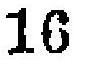16
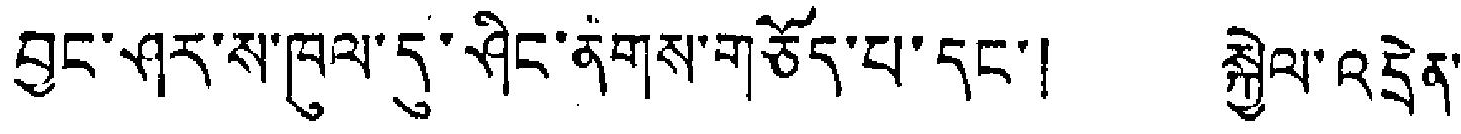བྱང་ཤར་ས་ཁུལ་དུ་ཤིང་ནགས་གཅོད་པ་དང་། སྐྱེལ་འདྲེན་
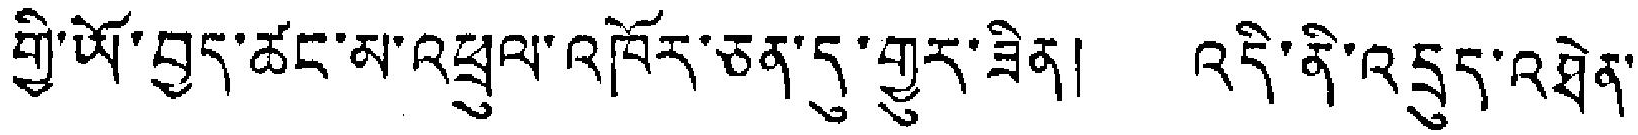གྱི་ཡོ་བྱད་ཚང་མ་འཕྲུལ་འཁོར་ཅན་དུ་གྱུར་ཟིན། འདི་ནི་འདྲུད་འཐེན་
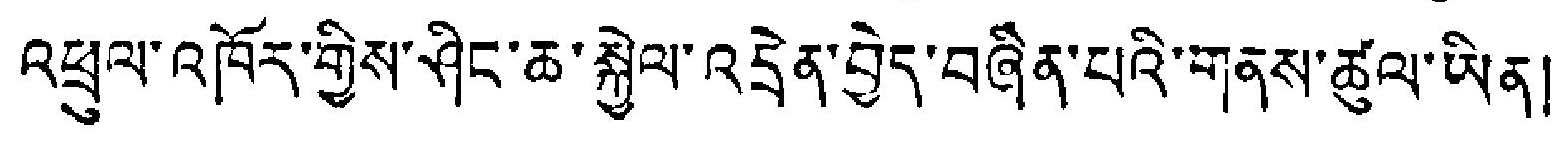འཕྲུལ་འཁོར་གྱིས་ཤིང་ཆ་སྐྱེལ་འདྲེན་བྱེད་བཞིན་པའི་གནས་ཚུལ་ཡིན།
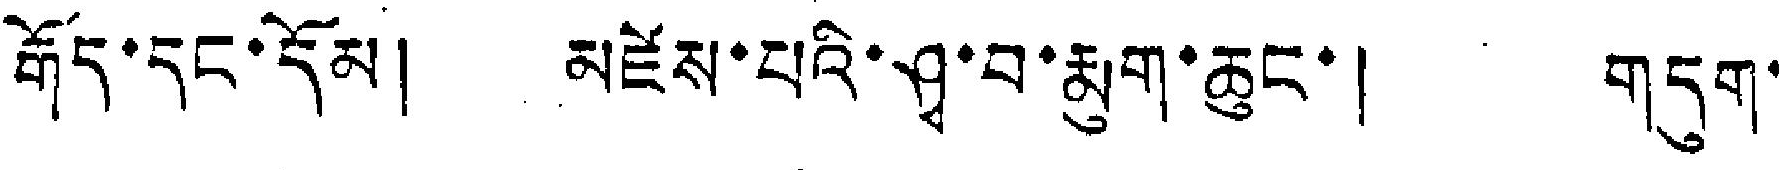རྒོད་དང་དོམ། མཛེས་པའི་ཤྭ་བ་རྨུག་ཆུང་། གདུག་
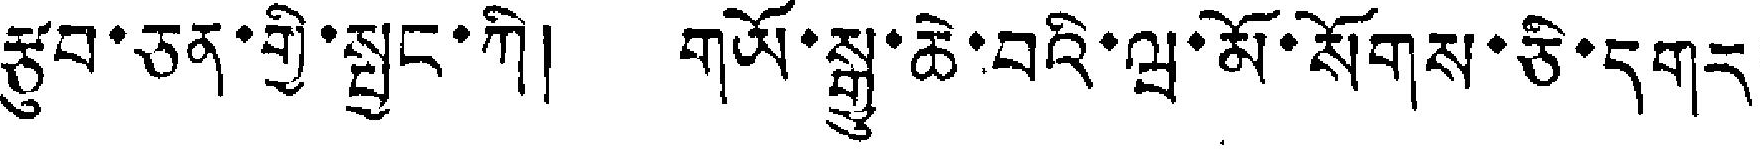རྩུབ་ཅན་གྱི་སྤྱང་ཀི། གཡོ་སྒྱུ་ཆེ་བའི་ཝ་མོ་སོགས་ཅི་དགར་
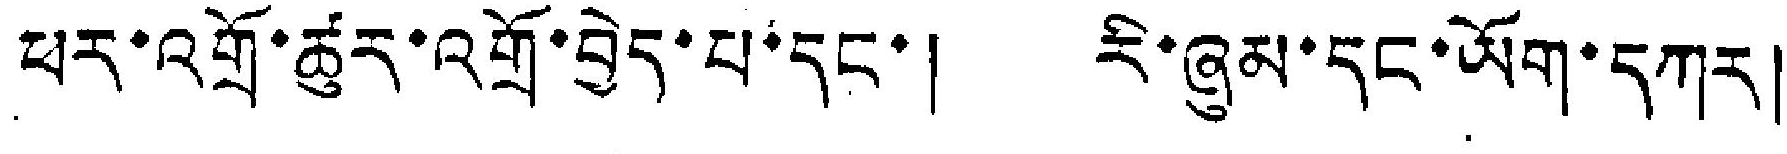ཕར་འགྲོ་ཚུར་འགྲོ་བྱེད་པ་དང་། རི་ཞུམ་དང་ཡོག་དཀར།
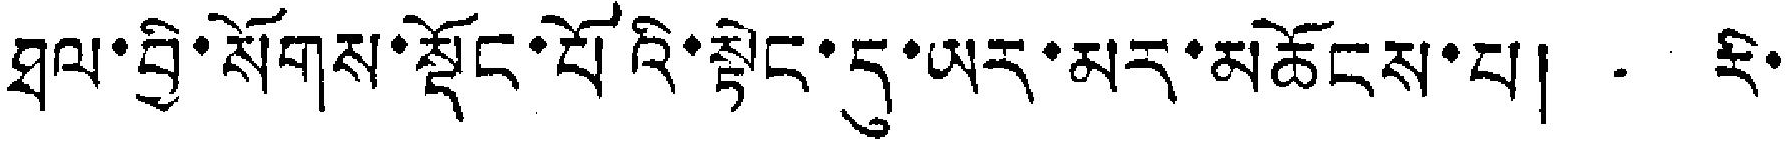ཐལ་བྱི་སྲོགས་སྡོང་པའི་སྟེང་དུ་ཡར་མར་མཆོངས་པ། རི་
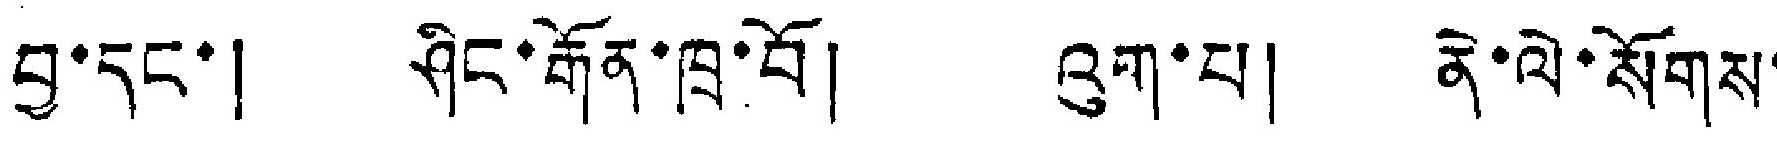བྱ་དང་། ཤིང་རྒོན་ཁྲ་བོ། འུག་པ། ནེ་ལེ་སོགས་
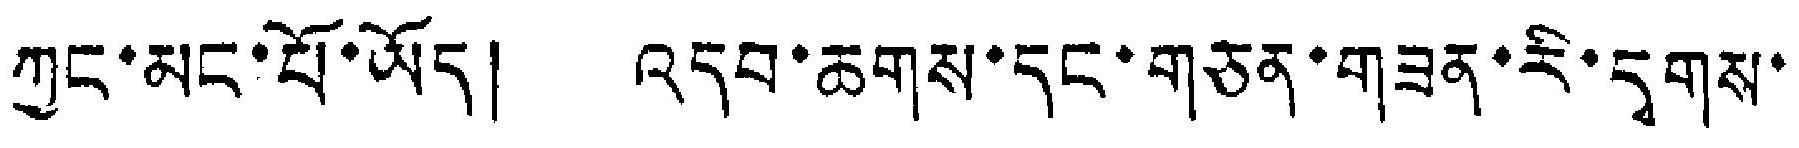ཀྱང་མང་པོ་ཡོད། འདབ་ཆགས་དང་གཅན་གཟན་རི་དྭགས་
